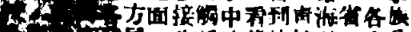校，在與各方面接觸中看到靑海省各族
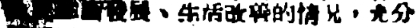人民生產發展、生活改善的情況，充分
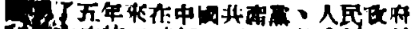瞭解了五年來在中國共產黨、人民政府
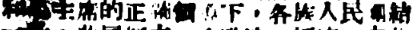和毛主席的正確領導下，各族人民團結
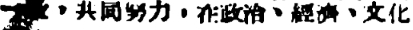一致，共同努力，在政治、經濟、文化
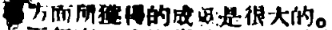等方面所獲得得成就是很大的。
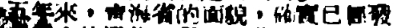五年來，靑海省的面貌，確實已經發
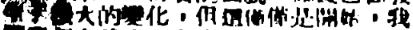生了巨大的變化，但這僅僅是開始，我
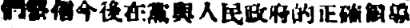們相信今後在黨與人民政府的正確領導
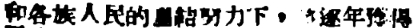和各族人民的團結努力下，將逐年獲得
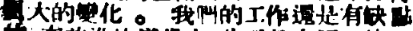巨大的變化。 我們的工作還是有缺點
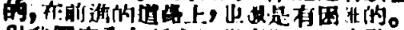的，在前進的道路上，也還是有困難的。
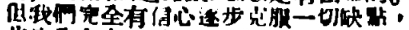但我們完全有信心逐步克服一切缺點，
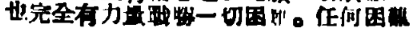也完全有力量戰勝一切困難。任何困難
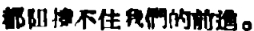都阻撓不住我們的前進。
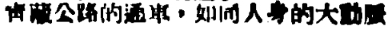靑藏公路的通車，如同人身的大動脈
